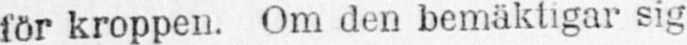för kroppen. Om den bemäktigar sig
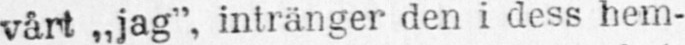vårt „jag“, intränger den i dess hem-
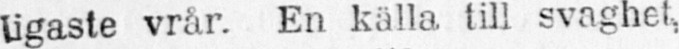ligaste vrår. En källa till svaghet,
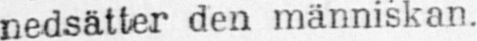nedsätter den människan.
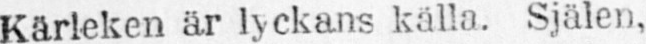Kärleken är lyckans källa. Själen,
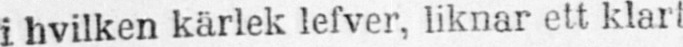i hvilken kärlek lefver, liknar ett klart
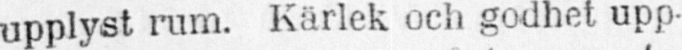upplyst rum. Kärlek och godhet upp-
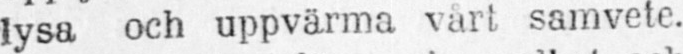lysa och uppvärma vårt samvete.
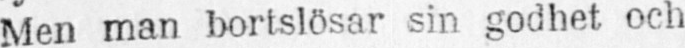Men man bortslösar sin godhet och
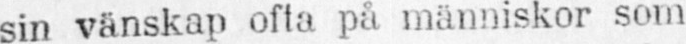sin vänskap ofta på människor som
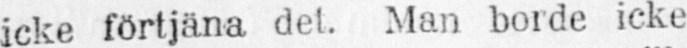icke förtjäna det. Man borde icke
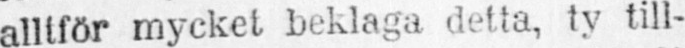alltför mycket beklaga detta, ty till-
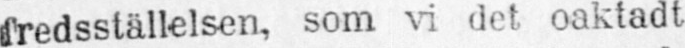fredsställelsen, som vi det oaktadt
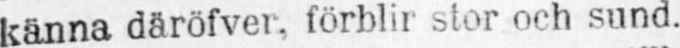känna däröfver, förblir stor och sund.
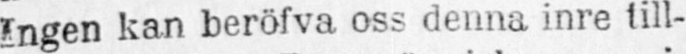Ingen kan beröfva oss denna inre till-
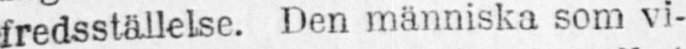fredsställelse. Den människa som vi-
